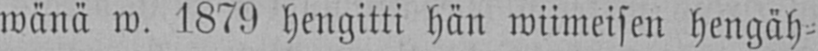wänä w. 1879 hengitti hän wiimeisen hengäh-
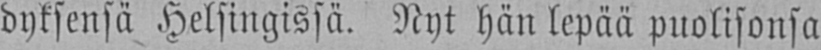dyksensä Helsingissä. Nyt hän lepää puolisonsa
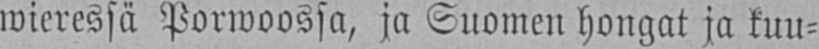wieressä Porwoossa, ja Suomen hongat ja kuu-
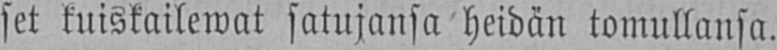set kuiskailewat satujansa heidän tomullansa.
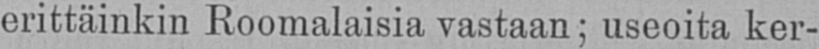erittäinkin Roomalaisia vastaan; useoita ker-
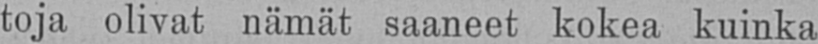toja olivat nämät saaneet kokea kuinka
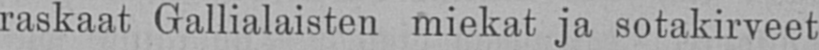raskaat Gallialaisten miekat ja sotakirveet
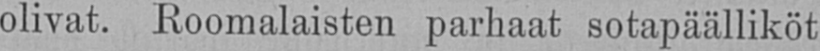olivat. Roomalaisten parhaat sotapäälliköt
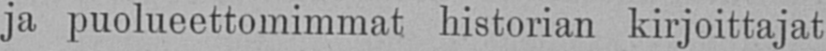ja puolueettomimmat historian kirjoittajat
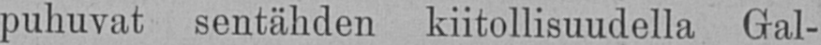puhuvat sentähden kiitollisuudella Gal-
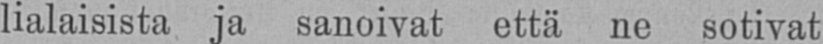lialaisista ja sanoivat että ne sotivat
